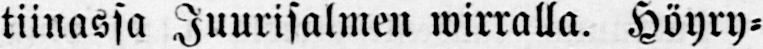tiinassa Juurisalmen wirralla. Höyry-
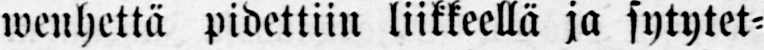wenhettä pidettiin liikkeellä ja sytytet-
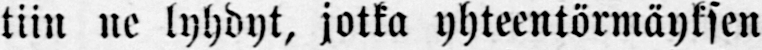tiin ne lyhdyt, jotka yhteentörmäyksen
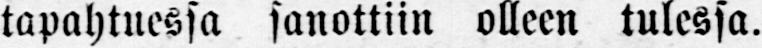tapahtuessa sanottiin olleen tulessa.
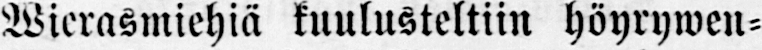Wierasmiehiä kuulusteltiin höyrywen-
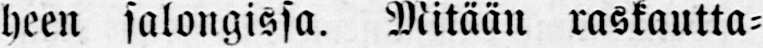heen salongissa. Mitään raskautta-
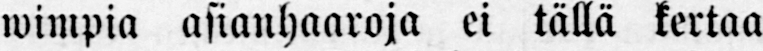wimpia asianhaaroja ei tällä kertaa
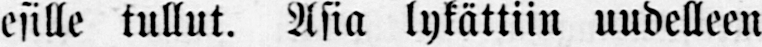esille tullut. Asia lykättiin uudelleen
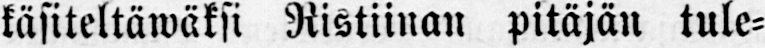käsiteltäwäksi Ristiinan pitäjän tule-
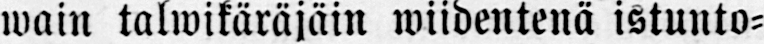wain talwikäräjäin wiidentenä istunto-
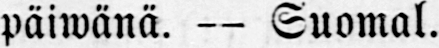päiwänä. — Suomal.
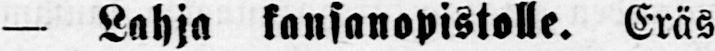— Lahja kansanopistolle. Eräs
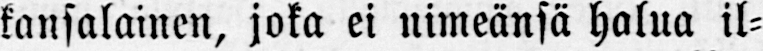kansalainen, joka ei nimeänsä halua il-
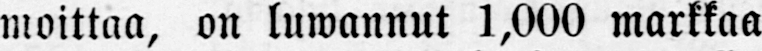moittaa, on luwannut 1,000 markkaa
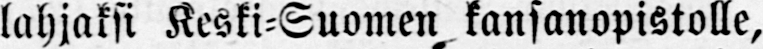lahjaksi Keski-Suomen kansanopistolle,
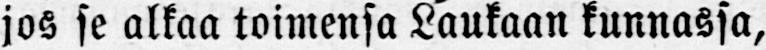jos se alkaa toimensa Laukaan kunnassa,
